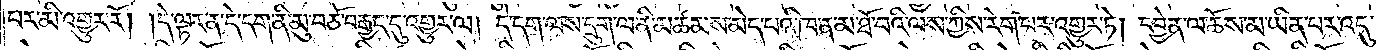པར་མི་འགྱུར་རོ། །དེ་ལྟར་ན་དེ་དག་ནི་མུ་བཅོ་བརྒྱད་དུ་འགྱུར་ལ། དེ་དག་ལས་དྲུག་ལ་ནི་མཚམས་མེད་པའི་ཁ་ན་མ་ཐོ་བའི་ལས་ཀྱིས་རེག་པར་འགྱུར་ཏེ། དབྱེན་ལ་ཆོས་མ་ཡིན་པར་འདུ་
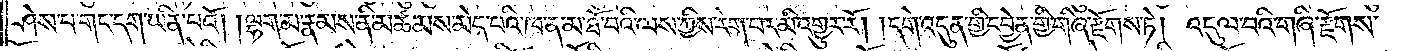ཤེས་པ་གང་དག་ཡིན་པའོ། །ལྷག་མ་རྣམས་ནི་མཚམས་མེད་པའི་ཁ་ན་མ་ཐོ་བའི་ལས་ཀྱིས་རེག་པར་མི་འགྱུར་རོ། །དགེ་འདུན་གྱི་དབྱེན་གྱི་གཞི་རྫོགས་ཏེ། འདུལ་བའི་གཞི་རྫོགས་
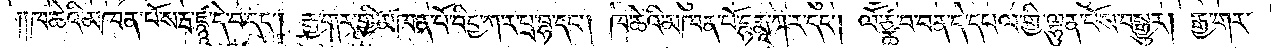སོ། ༎ཁ་ཆེའི་མཁན་པོ་སརྦ་ཛྙཱ་དེ་བ་དང༌། རྒྱ་གར་གྱི་མཁན་པོ་བིདྱ་ཀ་ར་ཕྲ་བྷ་དང༌། ཁ་ཆེའི་མཁན་པོ་དྷརྨཱ་ག་ར་དང༌། ལོ་ཙྪ་བ་བན་དེ་དཔལ་གྱི་ལྷུན་པོས་བསྒྱུར། རྒྱ་གར་
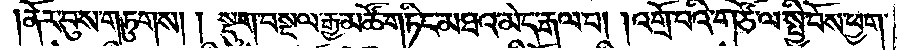ནོར་བུས་གཏུགས། །སྡུག་བསྔལ་རྒྱ་མཚོ་གཏིང་མཐའ་མེད་རྒལ་བ། །འགྲོ་བའི་གཙོ་ལ་སྤྱི་བོས་ཕྱག་
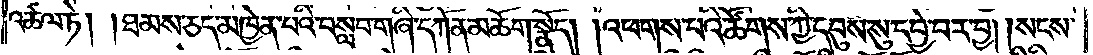འཚལ་ཏེ། །ཐམས་ཅད་མཁྱེན་པའི་བསླབ་གཞི་དཀོན་མཆོག་སྣོད། །འཕགས་པའི་ཚོགས་ཀྱི་དབུས་སུ་དབྱེ་བར་བྱ།    །སངས་
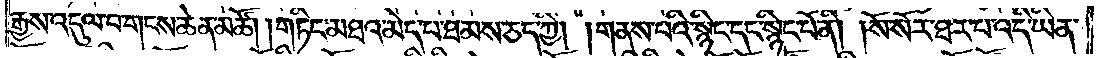རྒྱས་འདུལ་བ་གངས་ཆེན་མཚོ། །གཏིང་མཐའ་མེད་པ་ཐམས་ཅད་ཀྱི། །གནས་པའི་སྙིང་དང་སྙིང་པོ་ནི། །སོ་སོར་ཐར་པ་འདི་ཡིན་
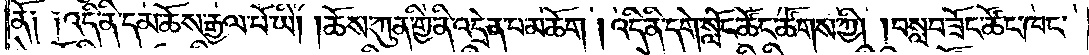ནོ༑ ༑འདི་ནི་དམ་ཆོས་རྒྱལ་པོ་ཡི། །ཆོས་ཀུན་གྱི་ནི་འདྲེན་པ་མཆོག །འདི་ནི་དགེ་སློང་ཚོང་ཚོགས་ཀྱི། །བསླབ་ཟོང་ཚོང་ཁང་
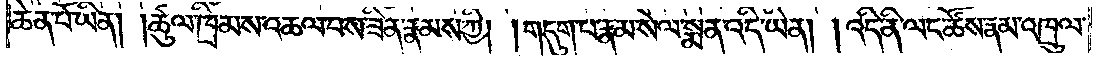ཆེན་པོ་ཡིན། །ཚུལ་ཁྲིམས་འཆལ་བས་ཟིན་རྣམས་ཀྱི། །གདུག་པ་རྣམ་སེལ་སྨན་འདི་ཡིན། །འདི་ནི་ལང་ཚོས་རྣམ་འཁྲུལ་
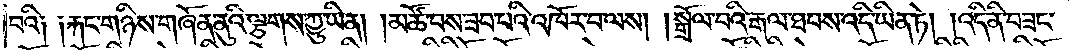བའི༑ ༑རྐང་གཉིས་གཞོན་ནུའི་ལྕགས་ཀྱུ་ཡིན། །མཚོ་བས་ཟབ་པའི་འཁོར་བ་ལས། །སྒྲོལ་བའི་རྒལ་ཐབས་འདི་ཡིན་ཏེ། །འདི་ནི་བཟང་
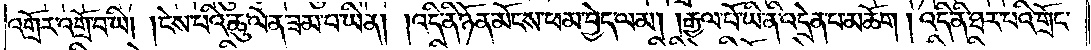འགྲོར་འགྲོ་བ་ཡི། །ངེས་པའི་ཆུ་ལོན་ཟམ་པ་ཡིན། །འདི་ནི་ཉོན་མོངས་ཕམ་བྱེད་ལམ། །རྒྱལ་པོ་ཡི་ནི་འདྲེན་པ་མཆོག །འདི་ནི་ཐར་པའི་གྲོང་
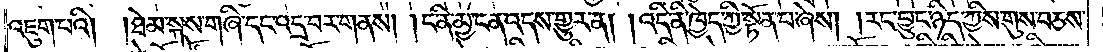འཇུག་པའི། །ཐེམ་སྐས་གཞི་དང་འདྲ་བར་གནས། །ང་ནི་མྱ་ངན་འདས་གྱུར་ན། །འདི་ནི་ཁྱེད་ཀྱི་སྟོན་པ་ཞེས། །རང་བྱུང་ཉིད་ཀྱིས་གུས་བཅས་
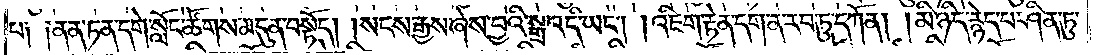པ༑ ༑ནན་ཏན་དགེ་སློང་ཚོགས་མདུན་བསྟོད། །སངས་རྒྱས་ཞེས་བྱའི་སྒྲ་འདི་ཡང༌། །འཇིག་རྟེན་དག་ན་རབ་ཏུ་དཀོན། །མི་ཉིད་རྙེད་པ་ཤིན་ཏུ་
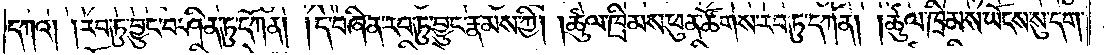དཀའ། །རབ་ཏུ་བྱུང་བ་ཤིན་ཏུ་དཀོན། །དེ་བཞིན་རབ་ཏུ་བྱུང་རྣམས་ཀྱི། །ཚུལ་ཁྲིམས་ཕུན་ཚོགས་རབ་ཏུ་དཀོན། །ཚུལ་ཁྲིམས་ཡོངས་སུ་དག་
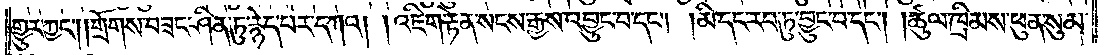གྱུར་ཀྱང༌། །གྲོགས་བཟང་ཤིན་ཏུ་རྙེད་པར་དཀའ། །འཇིག་རྟེན་སངས་རྒྱས་འབྱུང་བ་དང༌། །མི་དང་རབ་ཏུ་བྱུང་བ་དང༌། །ཚུལ་ཁྲིམས་ཕུན་སུམ་
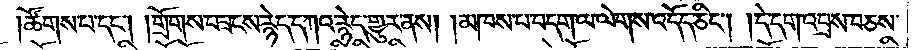།ཚོགས་པ་དང༌། །གྲོགས་བཟངས་རྙེད་དཀའ་རྙེད་གྱུར་ནས། །མཁས་པ་བདག་ལ་ལེགས་འདོད་ཅིང༌། །དེ་དག་འབྲས་བཅས་
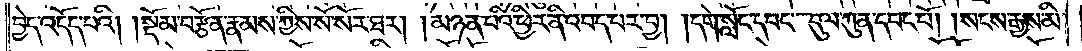བྱེད་འདོད་པའི། །སྡོམ་བརྩོན་རྣམས་ཀྱིས་སོ་སོར་ཐར། །མཉན་པའི་ཕྱིར་ནི་འབད་པར་བྱ། །དགེ་སློང་དབང་དུལ་ཀུན་དབང་པོ། །སངས་རྒྱས་མི་
